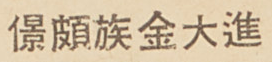景頗族金大進
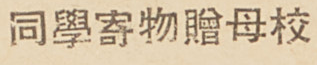同學寄物贈母校
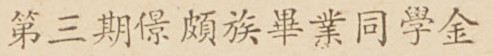第三期景頗族畢業同學金
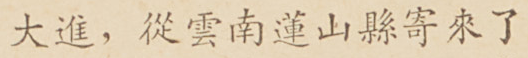大進，從雲南蓮山縣寄來了
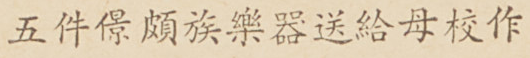五件景頗族樂器送給母校作
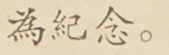爲紀念。
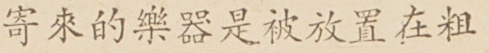寄來的樂器是被放置在粗
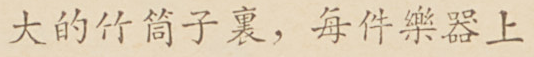大的竹筒子裏，每件樂器上
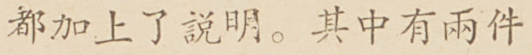都加上了說明。其中有兩件
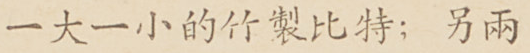一大一小的竹製比特；另兩
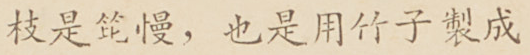枝是笓慢，也是用竹子製成
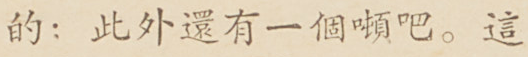的；此外還有一個噸吧。這
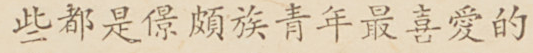些都是景頗族青年最喜愛的
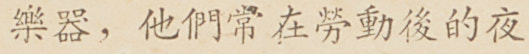樂器，他們常在勞動後的夜
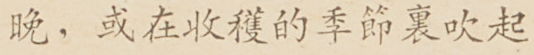晚，或在收穫的季節裏吹起
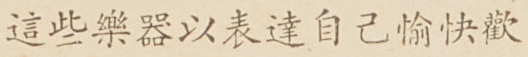這些樂器以表達自己愉快歡
